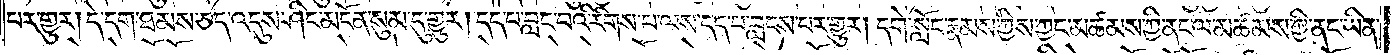པར་གྱུར། དེ་དག་ཐམས་ཅད་འདུས་ཤིང་མངོན་སུམ་དུ་གྱུར། དད་པ་བླང་བའི་རིགས་པ་ལས་དད་པ་བླངས་པར་གྱུར། དགེ་སློང་རྣམས་ཀྱིས་ཀྱང་མཚམས་ཀྱི་ནང་ལ་མཚམས་ཀྱི་ནང་ཡིན་
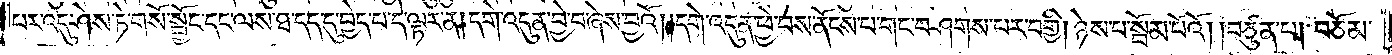པར་འདུ་ཤེས་ཏེ་གསོ་སྦྱོང་དང་ལས་ཐ་དད་དུ་བྱེད་པ་དེ་ལྟར་ན། དགེ་འདུན་བྱེ་བ་ཞེས་བྱའོ། །དགེ་འདུན་ཕྱེ་བས་ནོངས་པ་གང་བཤགས་པར་བགྱི། ཉེ་པ་སྦོམ་པོའོ། །བཙུན་པ། བཅོམ་
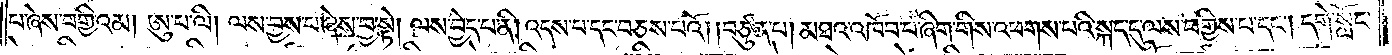པ་ཞེས་བགྱིའམ། ཨུ་པ་ལི། ལས་བྱས་པ་ཞེས་བྱ་སྟེ། ལས་བྱེད་པ་ནི། འདས་པ་དང་བཅས་པའོ། །བཙུན་པ། མཐའ་འཁོབ་པ་ཞིག་གིས་འཕགས་པའི་སྐད་དུ་ལས་བགྱིས་པ་དང༌། དགེ་སློང་
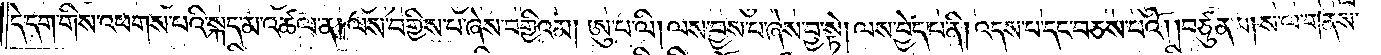དེ་དག་གིས་འཕགས་པའི་སྐད་མ་འཚལ་ན། ལས་བགྱིས་པ་ཞེས་བགྱིའམ། ཨུ་པ་ལི། ལས་བྱས་པ་ཞེས་བྱ་སྟེ། ལས་བྱེད་པ་ནི། འདས་པ་དང་བཅས་པའོ། །བཙུན་པ། ས་ལ་གནས་
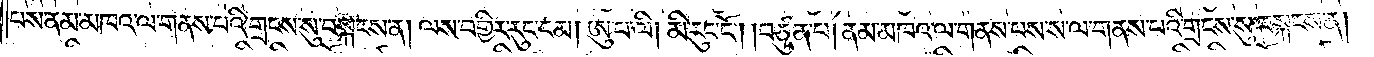པས་ནམ་མཁའ་ལ་གནས་པའི་གྲངས་སུ་བསྐངས་ན། ལས་བགྱིར་རུང་ངམ། ཨུ་པ་ལི། མི་རུང་ངོ༌། །བཙུན་པ། ནམ་མཁའ་ལ་གནས་པས་ས་ལ་གནས་པའི་གྲངས་སུ་བསྐངས་ན།
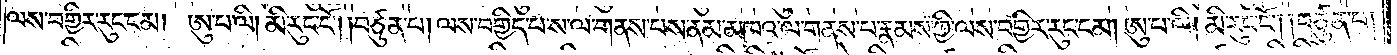ལས་བགྱིས་རུང་ངམ། ཨུ་པ་ལི། མི་རུང་ངོ༌། །བཙུན་པ། ལས་བགྱིད་པ་ས་ལ་གནས་པས་ནམ་མཁའ་ལ་གནས་པ་རྣམས་ཀྱི་ལས་བགྱིར་རུང་ངམ། ཨུ་པ་ལི། མི་རུང་ངོ༌། བཙུན་པ།
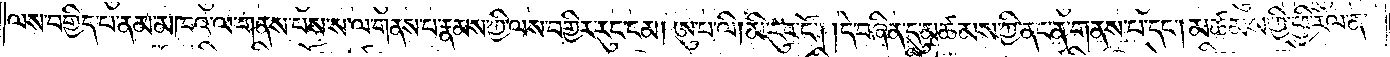ལས་བགྱིད་པ་ནམ་མཁའ་ལ་གནས་པས་ས་ལ་གནས་པ་རྣམས་ཀྱི་ལས་བགྱིར་རུང་ངམ། ཨུ་པ་ལི། མི་རུང་ངོ༌། །དེ་བཞིན་དུ་མཚམས་ཀྱི་ནང་ན་གནས་པ་དང༌། མཚམས་ཀྱི་ཕྱི་རོལ་ན་
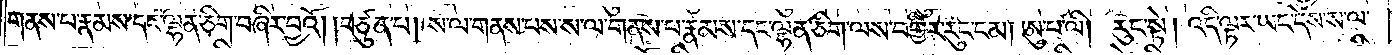གནས་པ་རྣམས་དང་ལྷན་ཅིག་བཞིར་བྱའོ། །བཙུན་པ། ས་ལ་གནས་པས་ས་ལ་གནས་པ་རྣམས་དང་ལྷན་ཅིག་ལས་བགྱིར་རུང་ངམ། ཨུ་པ་ལི། རུང་སྟེ། འདི་ལྟར་ཡང་དེས་ས་ལ་
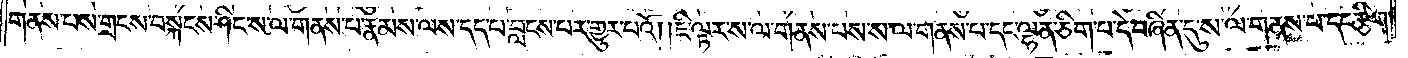གནས་པས་གྲངས་བསྐངས་ཤིང་ས་ལ་གནས་པ་རྣམས་ལས་དད་པ་བླངས་པར་གྱུར་པའོ། །ཇི་ལྟར་ས་ལ་གནས་པས་ས་ལ་གནས་པ་དང་ལྷན་ཅིག་པ་དེ་བཞིན་དུ་ས་ལ་གནས་པ་དང་རྩིག་
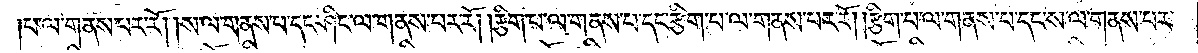པ་ལ་གནས་པར་རོ། །ས་ལ་གནས་པ་དང་ཤིང་ལ་གནས་པར་རོ། །རྩིག་པ་ལ་གནས་པ་དང་རྩིག་པ་ལ་གནས་པར་རོ། །རྩིག་པ་ལ་གནས་པ་དང་ས་ལ་གནས་པར་
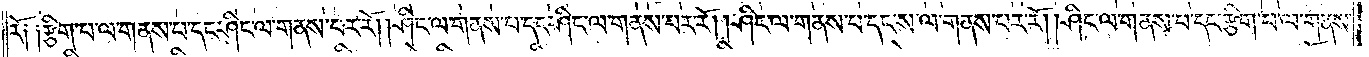རོ༑ ༑རྩིག་པ་ལ་གནས་པ་དང་ཤིང་ལ་གནས་པར་རོ། །ཤིང་ལ་གནས་པ་དང་ཤིང་ལ་གནས་པར་རོ། །ཤིང་ལ་གནས་པ་དང་ས་ལ་གནས་པར་རོ། །ཤིང་ལ་གནས་པ་དང་རྩིག་པ་ལ་གནས་
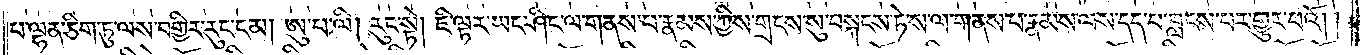པ་ལྷན་ཅིག་ཏུ་ལས་བགྱིར་རུང་ངམ། ཨུ་པ་ལི། རུང་སྟེ། ཇི་ལྟར་ཡང་ཤིང་ལ་གནས་པ་རྣམས་ཀྱིས་གྲངས་སུ་བསྐངས་ཏེ་ས་ལ་གནས་པ་རྣམས་ལས་དད་པ་བླངས་པར་གྱུར་པའོ། །
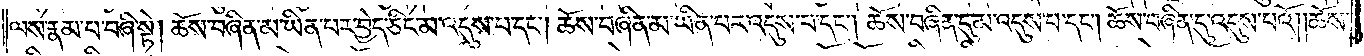ལས་རྣམ་པ་བཞི་སྟེ། ཆོས་བཞིན་མ་ཡིན་པར་བྱེད་ཅིང་མ་འདུས་པ་དང༌། ཆོས་བཞིན་མ་ཡིན་པར་འདུས་པ་དང༌། ཆོས་བཞིན་དུ་མ་འདུས་པ་དང༌། ཆོས་བཞིན་དུ་འདུས་པའོ། །ཆོས་
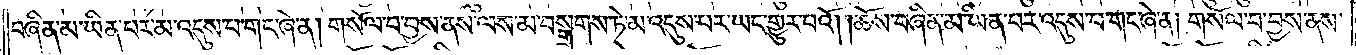བཞིན་མ་ཡིན་པར་མ་འདུས་པ་གང་ཞེ་ན། གསོལ་བ་བྱས་ནས་ལས་མ་བསྒྲགས་ཏེ་མ་འདུས་པར་ཡང་གྱུར་པའོ། །ཆོས་བཞིན་མ་ཡིན་པར་འདུས་པ་གང་ཞེ་ན། གསོལ་བ་བྱས་ནས་
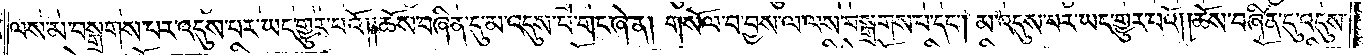ལས་མ་བསྒྲགས་པར་འདུས་པར་ཡང་གྱུར་པའོ། །ཆོས་བཞིན་དུ་མ་འདུས་པ་གང་ཞེ་ན། གསོལ་བ་བྱས་ལ་ལས་བསྒྲགས་པ་དང༌། མ་འདུས་པར་ཡང་གྱུར་པའོ། །ཆོས་བཞིན་དུ་འདུས་
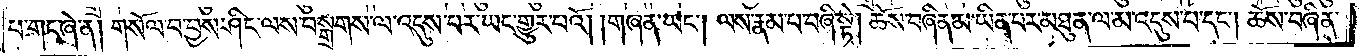པ་གང་ཞེ་ན། གསོལ་བ་བྱས་ཤིང་ལས་བསྒྲགས་ལ་འདུས་པར་ཡང་གྱུར་པའོ། །གཞན་ཡང༌། ལས་རྣམ་པ་བཞི་སྟེ། ཆོས་བཞིན་མ་ཡིན་པར་མཐུན་ལ་མ་འདུས་པ་དང༌། ཆོས་བཞིན་
